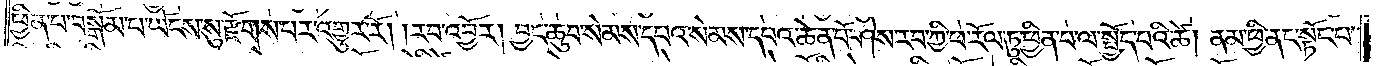ཕྱིན་པ་བསྒོམ་པ་ཡོངས་སུ་རྫོགས་པར་འགྱུར་རོ། །རབ་འབྱོར། བྱང་ཆུབ་སེམས་དཔའ་སེམས་དཔའ་ཆེན་པོ་ཤེས་རབ་ཀྱི་ཕ་རོལ་ཏུ་ཕྱིན་པ་ལ་སྤྱོད་པའི་ཚེ། ནམ་ཕྱི་ནང་སྟོང་པ་
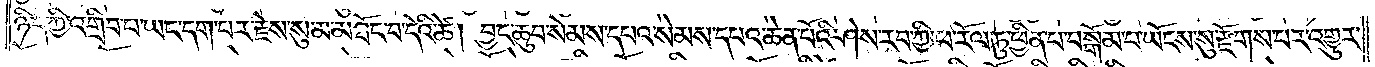ཉིད་ཀྱི་འགྲིབ་པ་ཡང་དག་པར་རྗེས་སུ་མ་མཐོང་བ་དེའི་ཚེ། བྱང་ཆུབ་སེམས་དཔའ་སེམས་དཔའ་ཆེན་པོའི་ཤེས་རབ་ཀྱི་ཕ་རོལ་ཏུ་ཕྱིན་པ་བསྒོམ་པ་ཡོངས་སུ་རྫོགས་པར་འགྱུར་
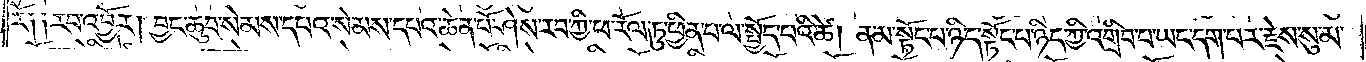རོ༑ ༑རབ་འབྱོར། བྱང་ཆུབ་སེམས་དཔའ་སེམས་དཔའ་ཆེན་པོ་ཤེས་རབ་ཀྱི་ཕ་རོལ་ཏུ་ཕྱིན་པ་ལ་སྤྱོད་པའི་ཚེ། ནམ་སྟོང་པ་ཉིད་སྟོང་པ་ཉིད་ཀྱི་འགྲིབ་པ་ཡང་དག་པར་རྗེས་སུ་མ་
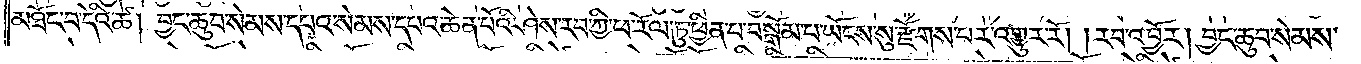མཐོང་བ་དེའི་ཚེ། བྱང་ཆུབ་སེམས་དཔའ་སེམས་དཔའ་ཆེན་པོའི་ཤེས་རབ་ཀྱི་ཕ་རོལ་ཏུ་ཕྱིན་པ་བསྒོམ་པ་ཡོངས་སུ་རྫོགས་པར་འགྱུར་རོ། །རབ་འབྱོར། བྱང་ཆུབ་སེམས་
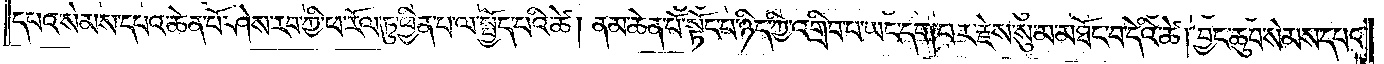དཔའ་སེམས་དཔའ་ཆེན་པོ་ཤེས་རབ་ཀྱི་ཕ་རོལ་ཏུ་ཕྱིན་པ་ལ་སྤྱོད་པའི་ཚེ། ནམ་ཆེན་པོ་སྟོང་པ་ཉིད་ཀྱི་འགྲིབ་པ་ཡང་དག་པར་རྫས་སུ་མ་མཐོང་བ་དེའི་ཚེ། བྱང་ཆུབ་སེམས་དཔའ་
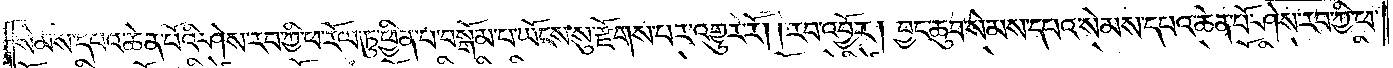སེམས་དཔའ་ཆེན་པོའི་ཤེས་རབ་ཀྱི་ཕ་རོལ་ཏུ་ཕྱིན་པ་བསྒོམ་པ་ཡོངས་སུ་རྫོགས་པར་འགྱུར་རོ། །རབ་འབྱོར། བྱང་ཆུབ་སེམས་དཔའ་སེམས་དཔའ་ཆེན་པོ་ཤེས་རབ་ཀྱི་ཕ་
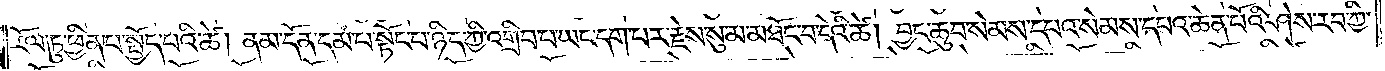རོལ་ཏུ་ཕྱིན་པ་ལ་སྤྱོད་པའི་ཚེ། ནམ་དོན་དམ་པ་སྟོང་པ་ཉིད་ཀྱི་འགྲིབ་པ་ཡང་དག་པར་རྗེས་སུ་མ་མཐོང་བ་དེའི་ཚེ། བྱང་ཆུབ་སེམས་དཔའ་སེམས་དཔའ་ཆེན་པོའི་ཤེས་རབ་ཀྱི་
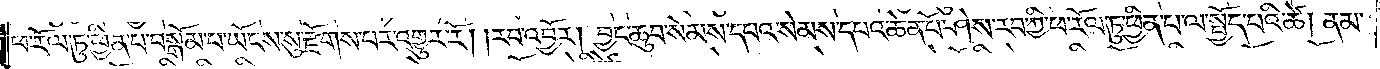ཕ་རོལ་ཏུ་ཕྱིན་པ་བསྒོམ་པ་ཡོངས་སུ་རྫོགས་པར་འགྱུར་རོ། །རབ་འབྱོར། བྱང་ཆུབ་སེམས་དཔའ་སེམས་དཔའ་ཆེན་པོ་ཤེས་རབ་ཀྱི་ཕ་རོལ་ཏུ་ཕྱིན་པ་ལ་སྤྱོད་པའི་ཚེ། ནམ་
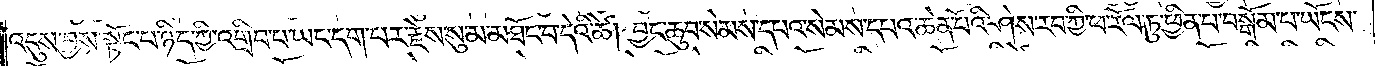འདུས་བྱས་སྟོང་པ་ཉིད་ཀྱི་འགྲིབ་པ་ཡང་དག་པར་རྗེས་སུ་མ་མཐོང་བ་དེའི་ཚེ། བྱང་ཆུབ་སེམས་དཔའ་སེམས་དཔའ་ཆེན་པོའི་ཤེས་རབ་ཀྱི་ཕ་རོལ་ཏུ་ཕྱིན་པ་བསྒོམ་པ་ཡོངས་
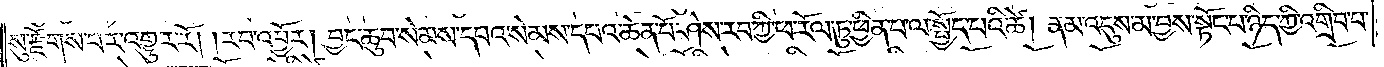སུ་རྫོགས་པར་འགྱུར་རོ། །རབ་འབྱོར། བྱང་ཆུབ་སེམས་དཔའ་སེམས་དཔའ་ཆེན་པོ་ཤེས་རབ་ཀྱི་ཕ་རོལ་ཏུ་ཕྱིན་པ་ལ་སྤྱོད་པའི་ཚེ། ནམ་འདུས་མ་བྱས་སྟོང་པ་ཉིད་ཀྱི་འགྲིབ་པ་
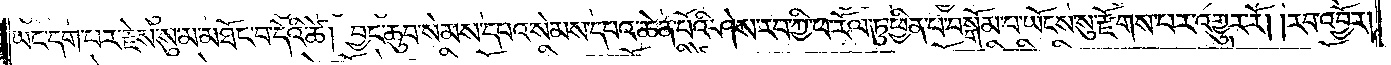ཡང་དག་པ་རྗེས་སུ་མ་མཐོང་བ་དེའི་ཚེ། བྱང་ཆུབ་སེམས་དཔའ་སེམས་དཔའ་ཆེན་པོའི་ཤེས་རབ་ཀྱི་ཕ་རོལ་ཏུ་ཕྱིན་པ་བསྒོམ་པ་ཡོངས་སུ་རྫོགས་པར་འགྱུར་རོ། །རབ་འབྱོར།
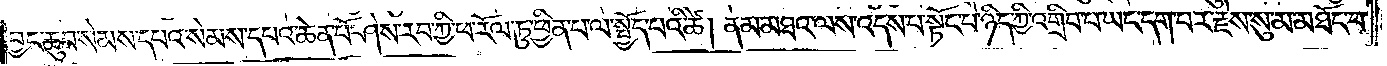བྱང་ཆུབ་སེམས་དཔའ་སེམས་དཔའ་ཆེན་པོ་ཤེས་རབ་ཀྱི་ཕ་རོལ་ཏུ་ཕྱིན་པ་ལ་སྤྱོད་པའི་ཚེ། ནམ་མཐའ་ལས་འདས་པ་སྟོང་པ་ཉིད་ཀྱི་འགྲིབ་པ་ཡང་དག་པར་རྗེས་སུ་མ་མཐོང་བ་
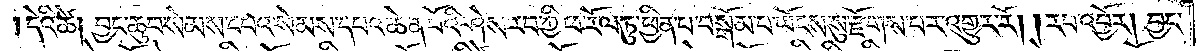དེའི་ཚེ། བྱང་ཆུབ་སེམས་དཔའ་སེམས་དཔའ་ཆེན་པོའི་ཤེས་རབ་གྱི་ཕ་རོལ་ཏུ་ཕྱིན་པ་བསྒོམ་པ་ཡོངས་སུ་རྫོགས་པར་འགྱུར་རོ། །རབ་འབྱོར། བྱང་
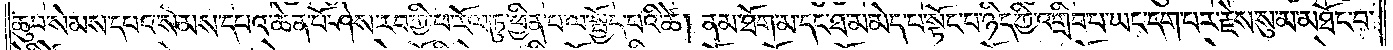ཆུབ་སེམས་དཔའ་སེམས་དཔའ་ཆེན་པོ་ཤེས་རབ་ཀྱི་ཕ་རོལ་ཏུ་ཕྱིན་པ་ལ་སྤྱོད་པའི་ཚེ། ནམ་ཐོག་མ་དང་ཐ་མ་མེད་པ་སྟོང་པ་ཉིད་ཀྱི་འགྲིབ་པ་ཡང་དག་པར་རྗེས་སུ་མ་མཐོང་བ་
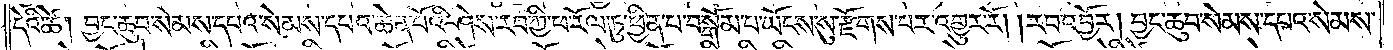དེའི་ཚེ། བྱང་ཆུབ་སེམས་དཔའ་སེམས་དཔའ་ཆེན་པོའི་ཤེས་རབ་ཀྱི་ཕ་རོལ་ཏུ་ཕྱིན་པ་བསྒོམ་པ་ཡོངས་སུ་རྫོགས་པར་འགྱུར་རོ། །རབ་འབྱོར། བྱང་ཆུབ་སེམས་དཔའ་སེམས་
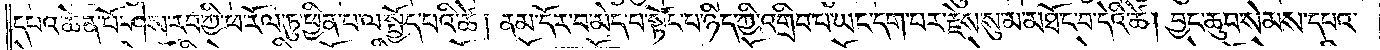དཔའ་ཆེན་པོ་ཤེས་རབ་ཀྱི་ཕ་རོལ་ཏུ་ཕྱིན་པ་ལ་སྤྱོད་པའི་ཚེ། ནམ་དོར་བ་མེད་པ་སྟོང་པ་ཉིད་ཀྱི་འགྲིབ་པ་ཡང་དག་པར་རྗེས་སུ་མ་མཐོང་བ་དེའི་ཚེ། བྱང་ཆུབ་སེམས་དཔའ་
